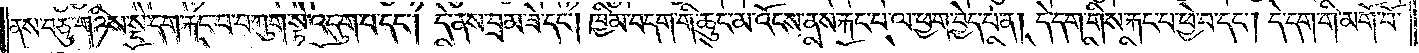ནས་བཅུ་གཉིས་སྡེ་དག་རྐང་པ་བཀུག་སྟེ་འདུག་པ་དང༌། དེ་ནས་བྲམ་ཟེ་དང༌། ཁྱིམ་བདག་གི་ཆུང་མ་འོངས་ནས་རྐང་པ་ལ་ཕྱག་བྱེད་པ་ན། དེ་དག་གིས་རྐང་པ་ཕྱེ་བ་དང༌། དེ་དག་གི་མགོ་བོ་
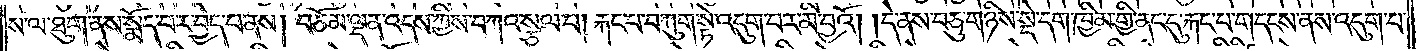ས་ལ་ཐུག་ནས་སྨོད་པར་བྱེད་པ་ནས། བཅོམ་ལྡན་འདས་ཀྱིས་བཀའ་སྩལ་པ། རྐང་པ་བཀུག་སྟེ་འདུག་པར་མི་བྱའོ། །དེ་ནས་བཅུ་གཉིས་སྡེ་དག་ཁྱིམ་གྱི་ནང་དུ་རྐང་པ་གདངས་ནས་འདུག་པ་
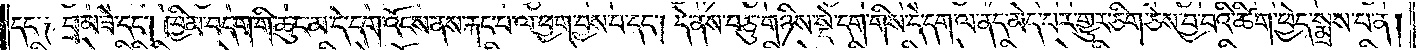དང་༑ བྲམ་ཟེ་དང༌། ཁྱིམ་བདག་གི་ཆུང་མ་དེ་དག་འོངས་ནས་རྐང་པ་ལ་ཕྱག་བྱས་པ་དང༌། དེ་ནས་བཅུ་གཉིས་སྡེ་དག་གིས་དེ་དག་ལ་ནད་མེད་པར་གྱུར་ཅིག་ཅེས་བྱ་བའི་ཚིག་ཕྱེད་སྨྲས་པ་ན།
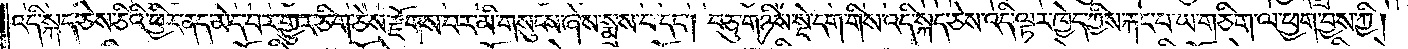འདི་སྐད་ཅེས་ཅིའི་ཕྱིར་ནད་མེད་པར་གྱུར་ཅིག་ཅེས་རྫོགས་པར་མི་གསུངས་ཞེས་སྨྲས་པ་དང༌། བཅུ་གཉིས་སྡེ་དག་གིས་འདི་སྐད་ཅེས་འདི་ལྟར་ཁྱེད་ཀྱིས་རྐང་པ་ཡ་གཅིག་ལ་ཕྱག་བྱས་ཀྱི།
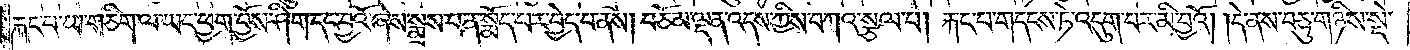རྐང་པ་ཡ་གཅིག་ལ་ཡང་ཕྱག་བྱོས་ཤིག་དང་བྱའོ་ཞེས་སྨྲས་པ་ན་སྨོད་པར་བྱེད་པ་ནས། བཅོམ་ལྡན་འདས་ཀྱིས་བཀའ་སྩལ་པ། རྐང་པ་གདངས་ཏེ་འདུག་པར་མི་བྱའོ། །དེ་ནས་བཅུ་གཉིས་སྡེ་
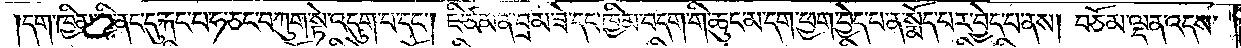།དག་ཁྱིམ་གྱི་ནང་དུ་རྐང་པ་ཧ་ཅང་བཀུག་སྟེ་འདུག་པ་དང༌། ཇི་ཙམ་ན་བྲམ་ཟེ་དང་ཁྱིམ་བདག་གི་ཆུང་མ་དག་ཕྱག་བྱེད་པ་ན་སྨོད་པར་བྱེད་པ་ནས། བཅོམ་ལྡན་འདས་
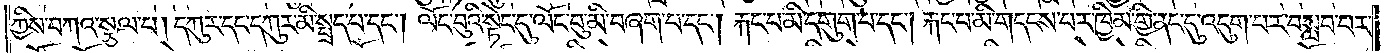ཀྱིས་བཀའ་སྩལ་པ། དཀུར་དང་དཀུར་མི་སྤྲད་པ་དང༌། ལོང་བུའི་སྟེང་དུ་ལོང་བུ་མི་བཞག་པ་དང༌། རྐང་པ་མི་དགུག་པ་དང༌། རྐང་པ་མི་གདངས་པར་ཁྱིམ་གྱི་ནང་དུ་འདུག་པར་བསླབ་པར་
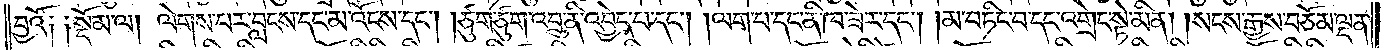བྱའོ༑ ༑སྡོམ་ལ། ལེགས་པར་བླངས་དང་མ་འོངས་དང༌། །ཙུག་ཙུག་འབྲུ་ནི་འབྱེད་པ་དང༌། །ལག་པ་དང་ནི་ཁ་ཟེར་དང༌། །མ་བཏིང་བ་དང་འགྲེང་སྟེ་མིན། །སངས་རྒྱས་བཅོམ་ལྡན་
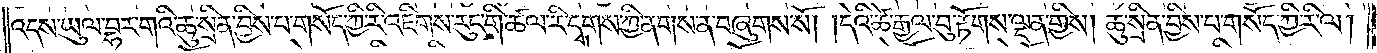འདས་ཡུལ་བྷར་གའི་ཆུ་སྲིན་བྱིས་པ་གསོད་ཀྱི་རི་འཇིགས་རུང་གི་ཚལ་རི་དྭགས་ཀྱི་ནགས་ན་བཞུགས་སོ། །དེའི་ཚེ་རྒྱལ་བུ་རྟོགས་ལྡན་གྱིས། ཆུ་སྲིན་བྱིས་པ་གསོད་ཀྱི་རི་ལ།
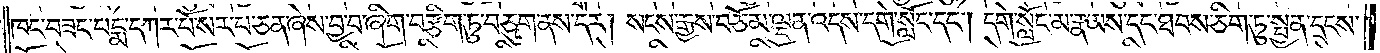ཁང་བཟང་པདྨ་དཀར་པོ་སར་པ་ཅན་ཞེས་བྱ་བ་ཞིག་བརྩིག་ཏུ་བཅུག་ནས་དེར། སངས་རྒྱས་བཅོམ་ལྡན་འདས་དགེ་སློང་དང༌། དགེ་སློང་མ་རྣམས་དང་ཐབས་ཅིག་ཏུ་སྤྱན་དྲངས་
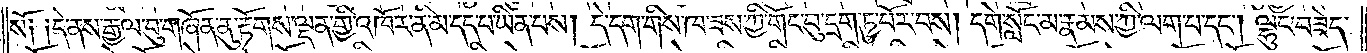སོ༑ ༑དེ་ནས་རྒྱལ་བུ་གཞོན་ནུ་རྟོགས་ལྡན་གྱི་འཁོར་ནི་མ་དད་པ་ཡིན་པས། དེ་དག་གིས་ཁ་ཟས་ཀྱི་གོང་བུ་དྲག་ཏུ་བོར་བས། དགེ་སློང་མ་རྣམས་ཀྱི་ལག་པ་དང༌། ལྷུང་བཟེད་
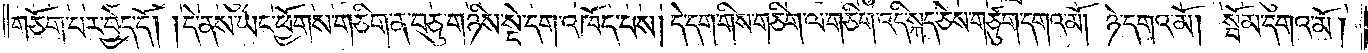གཅོག་པར་བྱེད་དོ། །དེ་ནས་ཡང་ཕྱོགས་གཅིག་ན་བཅུ་གཉིས་སྡེ་དག་འཁོད་པས། དེ་དག་གིས་གཅིག་ལ་གཅིག་འདི་སྐད་ཅེས་གཙུག་དགའ་མོ། ཉེ་དགའ་མོ། སྦོམ་དགའ་མོ་
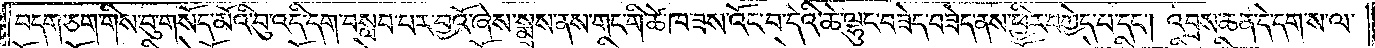བདག་ཅག་གིས་བུ་གསོད་མོའི་བུ་འདི་དག་བསླབ་པར་བྱའོ་ཞེས་སྨྲས་ནས་གང་གི་ཚེ་ཁ་ཟས་འོང་བ་དེའི་ཆེ་ལྷུང་བཟེད་བཟེད་ནས་ཕྱིར་བཀྱེད་པ་དང༌། འབྲས་ཆན་དེ་དག་ས་ལ་
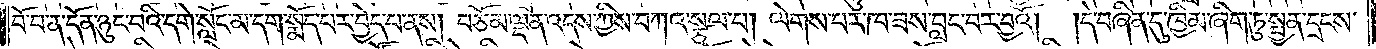བོ་བ་ན་དོན་ཉུང་བའི་དགེ་སློང་མ་དག་སྨོད་པར་བྱེད་པ་ནས། བཅོམ་ལྡན་འདས་ཀྱིས་བཀའ་སྩལ་པ། ལེགས་པར་ཁ་ཟས་བླང་བར་བྱའོ། །དེ་བཞིན་དུ་ཁྱིམ་ཞིག་ཏུ་སྤྱན་དྲངས་
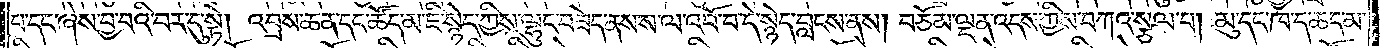པ་དང་ཞེས་བྱ་བའི་བར་དུ་སྟེ། འབྲས་ཆན་དང་ཚོད་མ་ཇི་སྙེད་ཀྱིས་ལྷུང་བཟེད་ནས་ས་ལ་འབོ་བ་དེ་སྙེད་བླངས་ནས། བཅོམ་ལྡན་འདས་ཀྱིས་བཀའ་སྩལ་པ། མུ་དང་ཁ་ད་ཆད་མ་
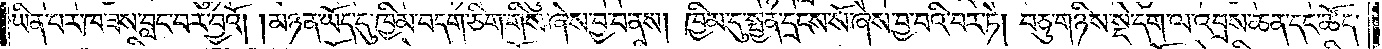ཡིན་པར་ཁ་ཟས་བླང་བར་བྱའོ། །མཉན་ཡོད་དུ་ཁྱིམ་བདག་ཅིག་གིས་ཞེས་བྱ་བ་ནས། ཁྱིམ་དུ་སྤྱན་དྲངས་སོ་ཞེས་བྱ་བའི་བར་ཏེ། བཅུ་གཉིས་སྡེ་དག་ལ་འབྲས་ཆན་དང་ཚོད་
